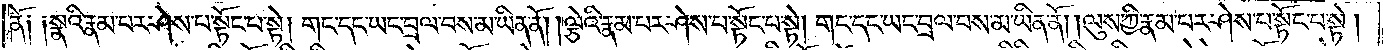ན༑ ༑སྣའི་རྣམ་པར་ཤེས་པ་སྟོང་པ་སྟེ། གང་དང་ཡང་བྲལ་བས་མ་ཡིན་ནོ། །ལྕེའི་རྣམ་པར་ཤེས་པར་སྟོང་པ་སྟེ། གང་དང་ཡང་བྲལ་བས་མ་ཡིན་ནོ། །ལུས་ཀྱི་རྣམ་པར་ཤེས་པ་སྟོང་པ་སྟེ།
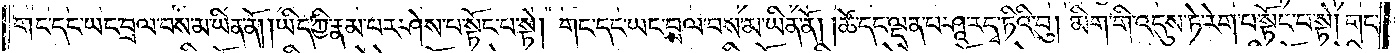གང་དང་ཡང་བྲལ་བས་མ་ཡིན་ནོ། །ཡིད་ཀྱི་རྣམ་པར་ཤེས་པ་སྟོང་པ་སྟེ། གང་དང་ཡང་བྲལ་བས་མ་ཡིན་ནོ། །ཚེ་དང་ལྡན་པ་ཤཱ་ར་དྭ་ཏིའི་བུ། མིག་གི་འདུས་ཏེ་རེག་པ་སྟོང་པ་སྟེ། གང་
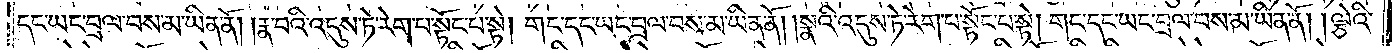དང་ཡང་བྲལ་བས་མ་ཡིན་ནོ། །རྣ་བའི་འདུས་ཏེ་རེག་པ་སྟོང་པ་སྟེ། གང་དང་ཡང་བྲལ་བས་མ་ཡིན་ནོ། །སྣའི་འདུས་ཏེ་རེག་པ་སྟོང་པ་སྟེ༑ གང་དང་ཡང་བྲལ་བས་མ་ཡིན་ནོ། །ལྕེའི་
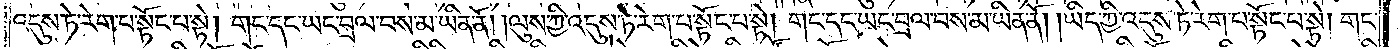འདུས་ཏེ་རེག་པ་སྟོང་པ་སྟེ། གང་དང་ཡང་བྲལ་བས་མ་ཡིན་ནོ། །ལུས་ཀྱི་འདུས་ཏེ་རེག་པ་སྟོང་པ་སྟེ། གང་དང་ཡང་བྲལ་བས་མ་ཡིན་ནོ། །ཡིད་ཀྱི་འདུས་ཏེ་རེག་པ་སྟོང་པ་སྟེ། གང་
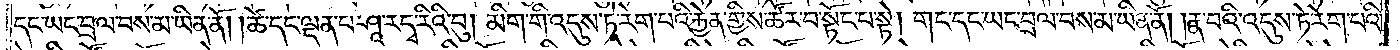དང་ཡང་བྲལ་བས་མ་ཡིན་ནོ། །ཚེ་དང་ལྡན་པ་ཤཱ་ར་དྭ་ཏིའི་བུ། མིག་གི་འདུས་ཏེ་རེག་པའི་རྐྱེན་གྱིས་ཚོར་བ་སྟོང་པ་སྟེ། གང་དང་ཡང་བྲལ་བས་མ་ཡིན་ནོ། །རྣ་བའི་འདུས་ཏེ་རེག་པའི་
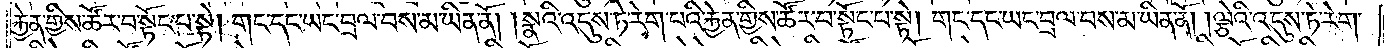རྐྱེན་གྱིས་ཚོར་བ་སྟོང་པ་སྟེ། གང་དང་ཡང་བྲས་བས་མ་ཡིན་ནོ། །སྣའི་འདུས་ཏེ་རེག་པའི་རྐྱེན་གྱིས་ཚོར་བ་སྟོང་པ་སྟེ། གང་དང་ཡང་བྲལ་བས་མ་ཡིན་ནོ། ལྕེའི་འདུས་ཏེ་རེག་
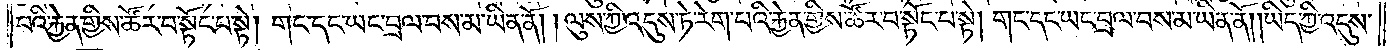པའི་རྐྱེན་གྱིས་ཚོར་བ་སྟོང་པ་སྟེ། གང་དང་ཡང་བྲལ་བས་མ་ཡིན་ནོ། །ལུས་ཀྱི་འདུས་ཏེ་རེག་པའི་རྐྱེན་གྱིས་ཚོར་བ་སྟོང་པ་སྟེ། གང་དང་ཡང་བྲལ་བས་མ་ཡིན་ནོ། །ཡིད་ཀྱི་འདུས་
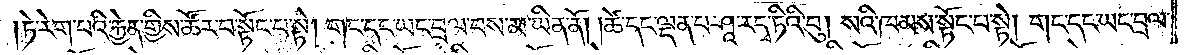ཏེ་རེག་པའི་རྐྱེན་གྱིས་ཚོར་བ་སྟོང་པ་སྟེ། གང་དང་ཡང་བྲལ་བས་མ་ཡིན་ནོ། །ཚེ་དང་ལྡན་པ་ཤཱ་ར་དྭ་ཏིའི་བུ། སའི་ཁམས་སྟོང་པ་སྟེ། གང་དང་ཡང་བྲལ་
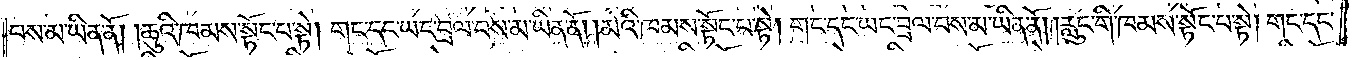བས་མ་ཡིན་ནོ། །ཆུའི་ཁམས་སྟོང་པ་སྟེ། གང་དང་ཡང་བྲལ་བས་མ་ཡིན་ནོ། །མེའི་ཁམས་སྟོང་པ་སྟེ། གང་དང་ཡང་བྲལ་བས་མ་ཡིན་ནོ། །རླུང་གི་ཁམས་སྟོང་པ་སྟེ། གང་དང་
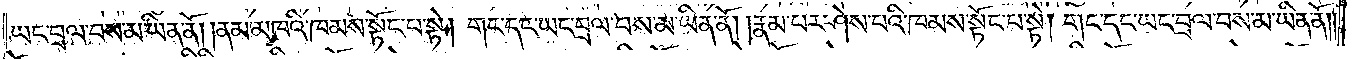ཡང་བྲལ་བས་མ་ཡིན་ནོ། །ནམ་མཁའི་ཁམས་སྟོང་པ་སྟེ། གང་དང་ཡང་བྲལ་བས་མ་ཡིན་ནོ། །རྣམ་པར་ཤེས་པའི་ཁམས་སྟོང་པ་སྟེ། གང་དང་ཡང་བྲལ་བས་མ་ཡིན་ནོ། །
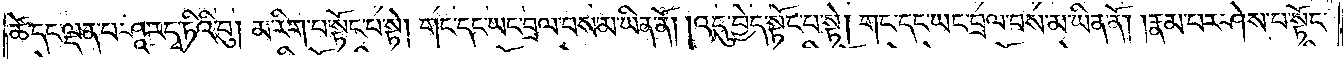ཚེ་དང་ལྡན་པ་ཤཱ་ར་དྭ་ཏིའི་བུ། མ་རིག་པ་སྟོང་པ་སྟེ། གང་དང་ཡང་བྲལ་བས་མ་ཡིན་ནོ། །འདུ་བྱེད་སྟོང་པ་སྟེ། གང་དང་ཡང་བྲལ་བས་མ་ཡིན་ནོ། །རྣམ་པར་ཤེས་པ་སྟོང་
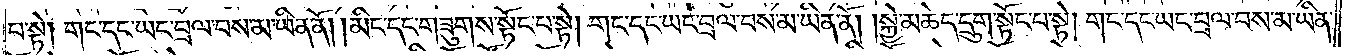པ་སྟེ། གང་དང་ཡང་བྲལ་བས་མ་ཡིན་ནོ། །མིང་དང་གཟུགས་སྟོང་པ་སྟེ། གང་དང་ཡང་བྲལ་བས་མ་ཡིན་ནོ། །སྐྱེ་མཆེད་དྲུག་སྟོང་པ་སྟེ། གང་དང་ཡང་བྲལ་བས་མ་ཡིན་
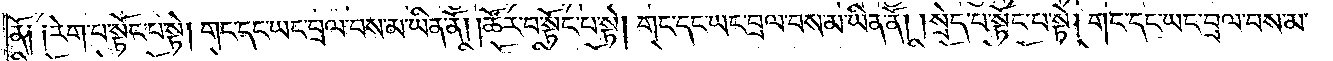ནོ། །རེག་པ་སྟོང་པ་སྟེ། གང་དང་ཡང་བྲལ་བས་མ་ཡིན་ནོ། །ཚོར་བ་སྟོང་པ་སྟེ། གང་དང་ཡང་བྲལ་བས་མ་ཡིན་ནོ། །སྲེད་པ་སྟོང་པ་སྟེ། གང་དང་ཡང་བྲལ་བས་མ་
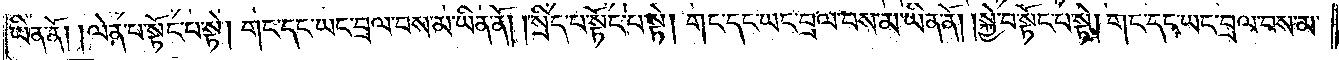ཡིན་ནོ། །ལེན་པ་སྟོང་པ་སྟེ། གང་དང་ཡང་བྲལ་བས་མ་ཡིན་ནོ། །སྲིད་པ་སྟོང་པ་སྟེ། གང་དང་ཡང་བྲལ་བས་མ་ཡིན་ནོ། །སྐྱེ་བ་སྟོང་པ་སྟེ། གང་དང་ཡང་བྲལ་བས་མ་
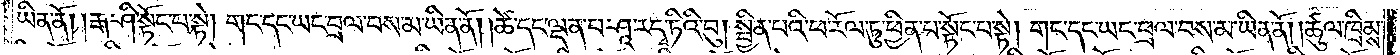ཡིན་ནོ། རྒ་ཤི་སྟོང་པ་སྟེ། གང་དང་ཡང་བྲལ་བས་མ་ཡིན་ནོ། །ཚེ་དང་ལྡན་པ་ཤཱ་ར་དྭ་ཏིའི་བུ། སྦྱིན་པའི་ཕ་རོལ་ཏུ་ཕྱིན་པ་སྟོང་པ་སྟེ། གང་དང་ཡང་བྲལ་བས་མ་ཡིན་ནོ། །ཚུལ་ཁྲིམས་
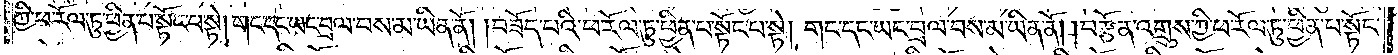ཀྱི་ཕ་རོལ་ཏུ་ཕྱིན་པ་སྟོང་པ་སྟེ། གང་དང་ཡང་བྲལ་བས་མ་ཡིན་ནོ། །བཟོད་པའི་ཕ་རོལ་ཏུ་ཕྱིན་པ་སྟོང་པ་སྟེ། གང་དང་ཡང་བྲལ་བས་མ་ཡིན་ནོ། །བརྩོན་འགྲུས་ཀྱི་ཕ་རོལ་ཏུ་ཕྱིན་པ་སྟོང་
